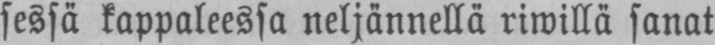sessä kappaleessa neljännellä riwillä sanat
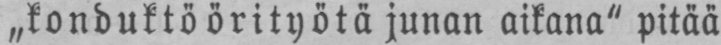„konduktöörityötä junan aikana" pitää
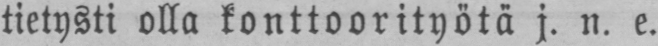tietysti olla konttoorityötä j. n. e.
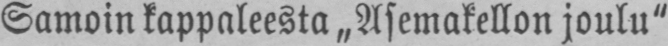Samoin kappaleesta „Asemakellon joulu"
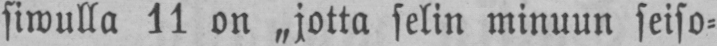siwulla 11 on „jotta selin minuun seiso-
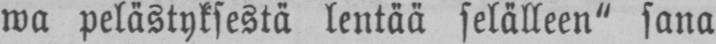wa pelästyksestä lentää selälleen" sana
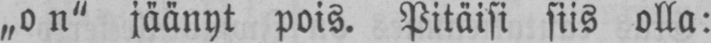„on" jäänyt pois. Pitäisi siis olla:
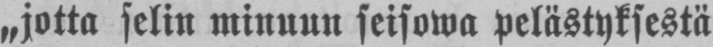„jotta selin minuun seisowa pelästyksestä
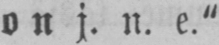on j. n. e."
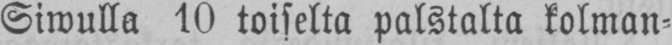Siwulla 10 toiselta palstalta kolman-
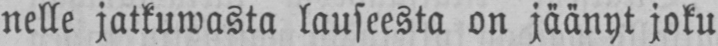nelle jatkuwasta lauseesta on jäänyt joku
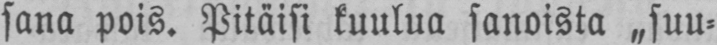sana pois. Pitäisi kuulua sanoista suu-
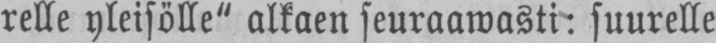relle yleisölle" alkaen seuraawasti suurelle
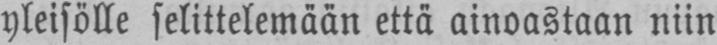yleisölle selittelemään että ainoastaan niin
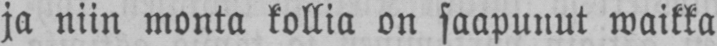ja niin monta kollia on saapunut waikka
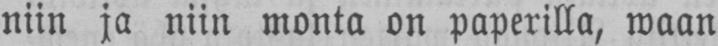niin ja niin monta on paperilla, waan
